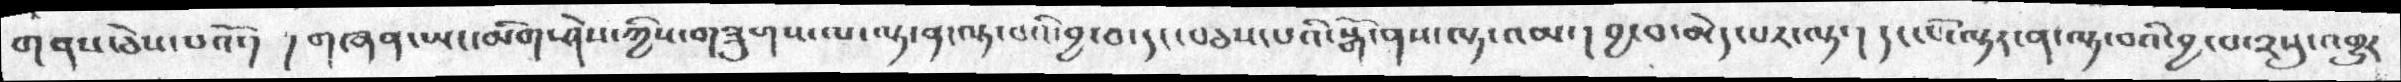གནས་ཅེས་པའོ་།  །གཞན་ཡང་མིག་ཤེས་ཀྱིས་གཟུགས་ལ་ལྟ་ན་ལྟ་བའི་བྱ་བ་དང་བཅས་པའི་སྒོ་ནས་ལྟ་འམ་།  བྱ་བ་མེད་པར་ལྟ་།  དང་པོ་ལྟར་ན་ལྟ་བའི་བྱ་བ་༢སུ་འགྱུར
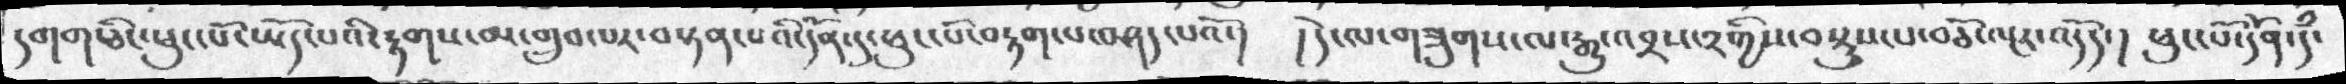དགག་ཅིང་ཕུང་པོ་ཡོད་པའི་རྟགས་མ་གྲུབ་པར་བསྟན་པའི་དོན་དུ་ཕུང་པོ་བརྟག་པ་བཤད་པའོ་།  །དེ་ལ་གཟུགས་ལ་རྒྱུ་འབྲས་༢ཀྱིས་བསྡུས་པ་བཅོ་ལྔར་འདོད་།  ཕུང་པོ་དོན་དཾ་
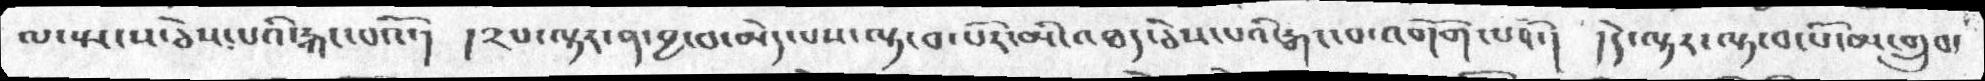ལ་སྤངས་ཅེས་པའི་རྐང་པའོ་།  །༢པ་ལྟར་ན་བྱ་བ་མེད་པས་ལྟ་བ་པོར་མི་འཐད་ཅེས་པའི་རྒང་བ་འགོག་པའོ་།  །དེ་ལྟར་ལྟ་བ་པོ་མ་གྲུབ་
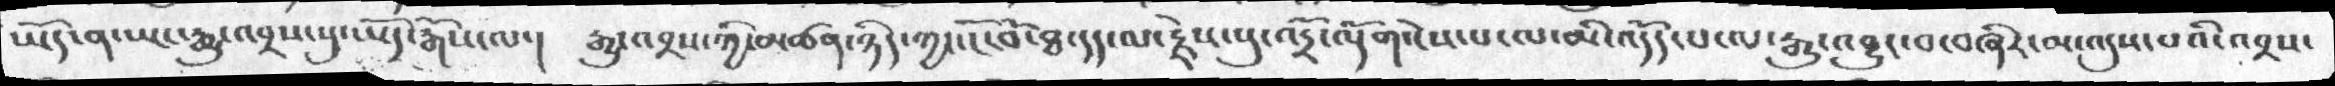ཡོད་ན་ཡང་རྒྱུ་འབྲས་སུ་ཡོད་རྒོས་ལ་།. རྒྱུ་འབྲས་ཀྱི་མཚན་ཉིད་ཀྱང་ངོ་བོ་ཐ་དད་ལ་རྗེས་སུ་འདྲོ་ལྡོག་ངེས་པ་ལ་མི་འདོད་པ་ལ་རྒྱུ་འབྱུང་བ་བཞིར་མ་འདུས་པའི་འབྲས་
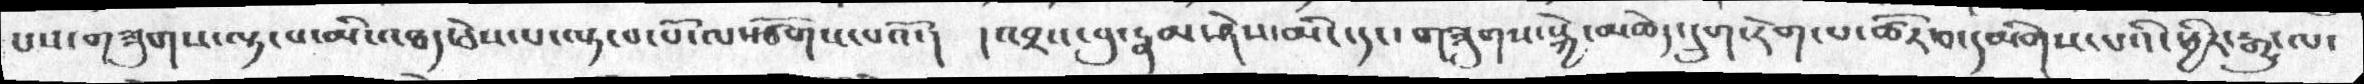པས་གཟུགས་ལྟ་པ་མི་འཐད་ཅེས་པ་ལྟ་བ་པོ་ལསྩོགས་པའོ་།  །འབྲས་བུ་རྣམ་ཤེས་མིང་དང་གཟུགས་སྐྱེ་མཆེད་དྲུག་རེག་པ་ཚོར་བ་དམིགས་པའི་ཕྱིར་རྒྱུ་ལ་
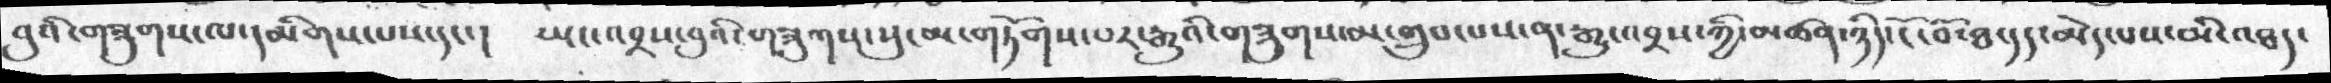བུའི་གཟུགས་ལ་དམིགས་པས་དང་།  ཡང་འབྲས་བུའི་གཟུགས་སུ་མ་གཏོགས་པར་རྒྱུའི་གཟུགས་མ་གྲུབ་པས་ན་རྒྱུ་འབྲས་ཀྱི་མཚན་ཉིད་ངོ་བོ་ཐ་དད་མེད་པས་མི་འཐད་
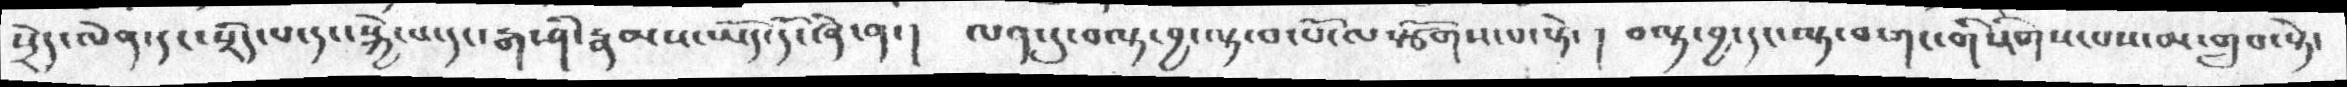སྲེད་ལེན་དང་སྲིད་པ་དང་སྐྱེ་པ་དང་རྒ་ཤི་རྣམས་ཡོད་དོ་ཞེ་ན་།  ལན་དུ་བལྟ་བྱ་ལྟ་བ་པོ་ལསྩོགས་པ་སྟེ་།  བལྟ་བྱ་དང་ལྟ་བ་གང་གིས་རིགས་པས་མ་གྲུབ་སྟེ་
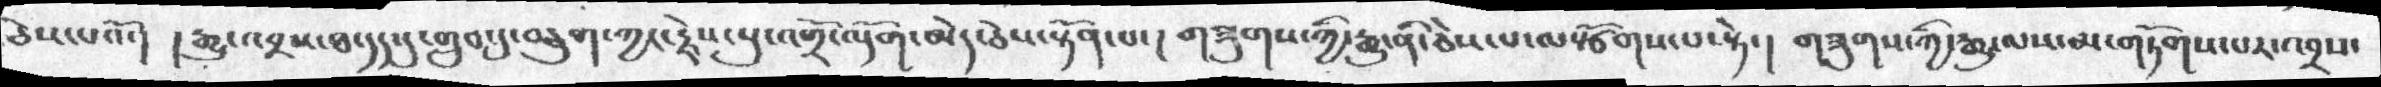ཅེས་པའོ་།  །རྒྱུ་འབྲས་ཐ་དད་གྲུབ་དུ་བཅུག་ཀྱང་རྗེས་སུ་འགྲོ་ལྡོག་མེད་ཅེས་སྟོན་པ་། གཟུགས་ཀྱི་རྒྱུ་ནི་ཅེས་ོ་ལསྩོགས་པ་སྟེ་།  གཟུགས་ཀྱི་རྒྱུ་ལས་མ་གཏོགས་པར་འབྲས་
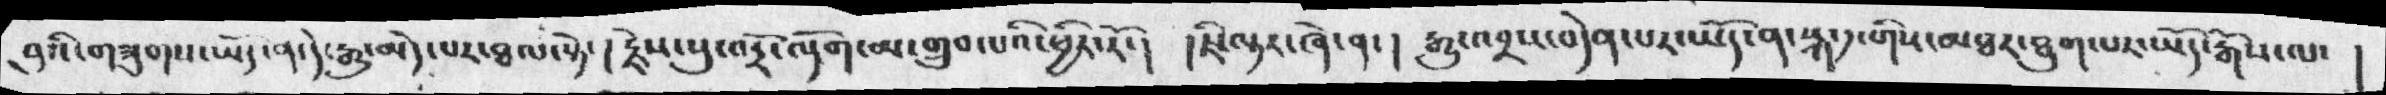བུའི་ཟུགས་ཡོད་ན་དེ་རྒྱུ་མེད་པར་ཐལ་སྟེ་།  རྗེས་སུ་འདྲོ་ལྔོག་མ་གྲུབ་པའི་འཕྱིར་རོ་། །ཇི་ལྟར་ཞེ་ན་།  རྒྱུ་འབྲས་བདེན་པར་ཡོད་ན་སྐད་༡་གིས་མཐར་ཐུག་པར་ཡོད་རྒོས་པར་  །
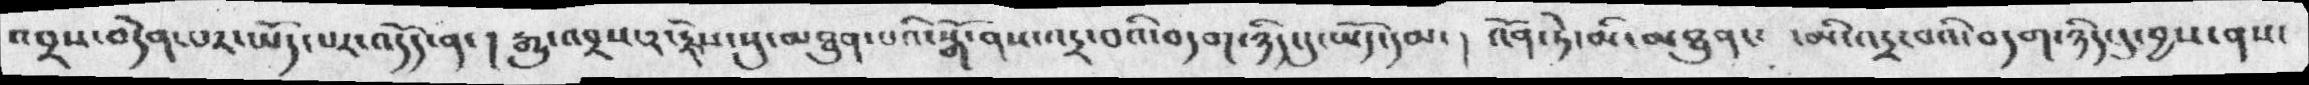འབྲས་བདེན་པར་ཡོད་པར་འདོད་ན་།  རྒྱུ་འབྲས་༢་རྗེས་སུ་མཐུན་པའི་སྒོ་ནས་འདྲ་བའི་བདག་ཉིད་དུ་ཡོད་དམ་། འོན་ཏེ་མི་མཐུན་ མི་འདྲ་བའི་བདག་ཉིད་དུ་བྱས་ནས་
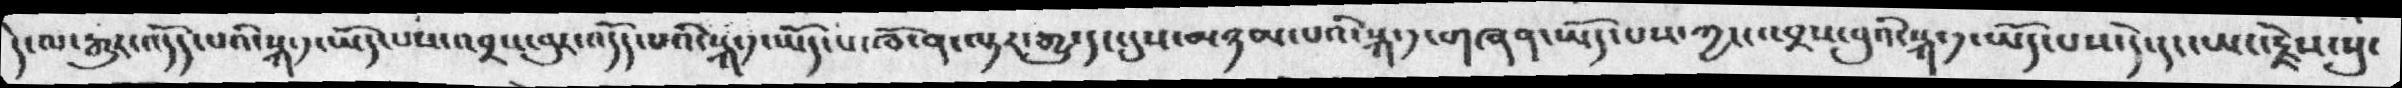དེ་ལ་རྒྱུར་འདོད་པའི་སྐ་༡་ཡོད་པས་འབྲས་བུར་འདོད་པའི་སྐ་༡་ཡོད་པ་ཁོ་ན་ལྟར་རྒྱུ་དང་དུས་མཉམ་པའི་སྐ་༡་གཞན་ཡོད་པས་ཀྱང་འབྲས་བུའི་སྐ་༡་ཡོད་པས་དེ་དང་ཡང་རྗེས་སུ་
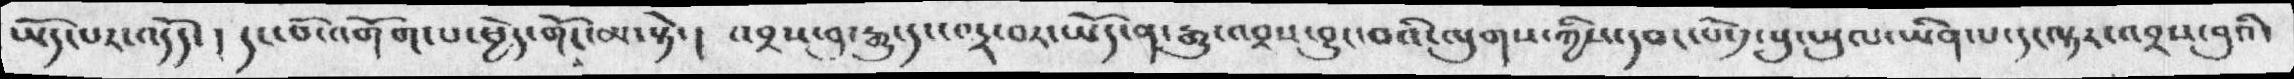ཡོད་པར་འདོད་། དང་པོ་འགོག་པ་ཕྱེད་གོང་མ་སྟེ་། འབྲས་བུ་རྒྱུ་དང་འདྲ་བར་ཡོད་ན་རྒྱུ་འབྲས་བྱུང་བའི་ལུགས་ཀྱིས་དབང་པོ་༡་སུ་ཡུལ་ཡིན་པ་ད་ལྟར་འབྲས་བུའི་
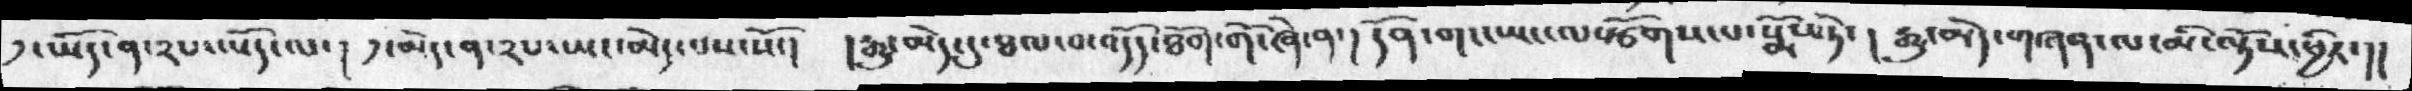༡་ཡོད་ན་༢པ་ཡོད་ལ་། ༡་མེད་ན་༢པ་ཡང་མེད་པས་སོ་། །རྒྱུ་མེད་དུ་ཐལ་བ་འདོད་ཐོག་གོ་ཞེ་ན་། དོན་གང་ཡང་ལསྩོགས་པ་སྨོས་ཏེ་། རྒྱུ་མེད་གཞན་ལ་མི་ལྟོས་ཕྱིར་།།
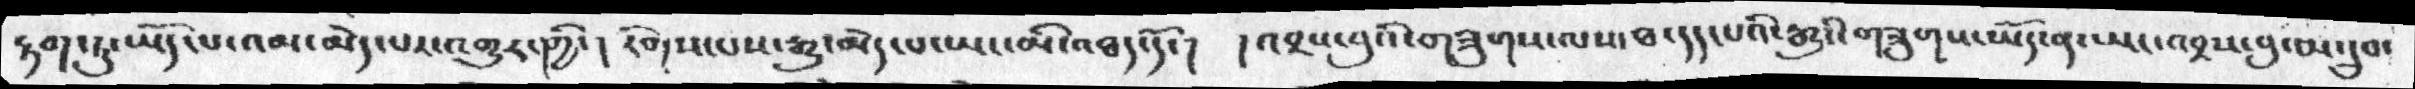རྟག་ཏུ་ཡོད་པ་འམ་མེད་པར་འགྱུར་ཀྱི་། རིགས་པས་རྒྱུ་མེད་པ་ཡང་མི་འཐད་དོ་། །འབྲས་བུའི་གཟུགས་ལས་ཐ་དད་པའི་རྒྱུའི་གཟུགས་ཡོད་ན་ཡང་འབྲས་བུ་མ་དྲུབ་
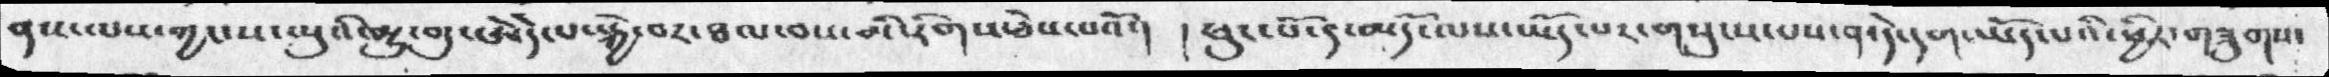ནས་ལས་ཀྱང་ས་ཡུའི་མྱུ་གུ་ཨེདེ་པ་སྐྱེ་བར་ཐལ་བས་མི་རིགས་ཅེས་པའོ་།  །ཕུང་པོ་ད་མདོ་ལས་ཡོད་པར་གསུངས་པས་ན་དེ་དག་ཡོད་པའི་ཕྱིར་གཟུགས་
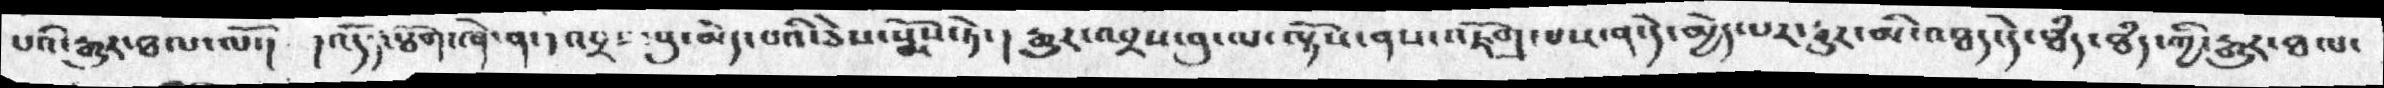པའི་རྒྱུར་ཐལ་ལོ་།  །འདོད་ཐོག་ཞེ་ན་༡འབྲས་བུ་མེད་པའི་ཅེས་སྨོས་ཏེ་། རྒྱུར་འབྲས་བུ་ལ་ལྟོས་ནས་འཇོག་པས་ན་དེ་མྱེད་པར་རྒྱུར་མི་འཐད་དེ་ཐཾད་ཐཾད་ཀྱི་རྒྱུར་ཐལ་
